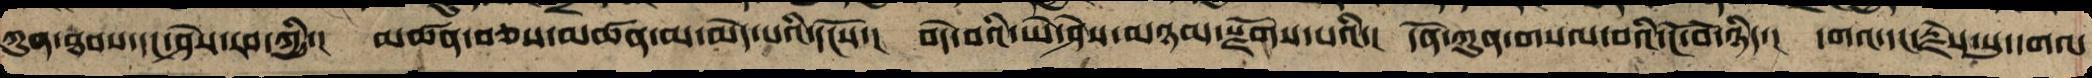ཀུན་ཐབས་དང་ཤེས་རབ་ཀྱི་། མཚན་བཅས་མཚན་མ་མེད་པའི་དངོས་། བདེ་བའི་ཡེ་ཤེས་མཉམསྫོགས་པའི་། དོན་ཀུན་གསལ་བའི་ངོ་བོ་ཉིད་། དགའ་དང་རྗེས་སུ་དགའ་
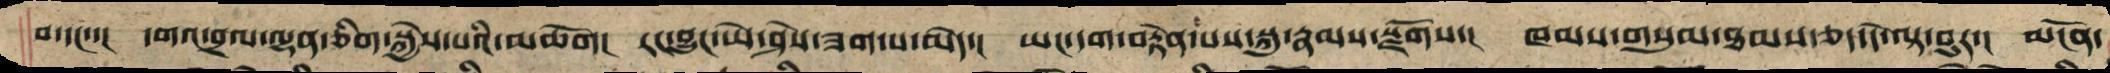བ་དང་་། དགའ་བྲལ་ལྷན་ཅིག་སྐྱེས་པའི་མཆོག། རང་བྱུང་ཡེ་ཤེས་ཟག་པ་མེད་། ཡང་དག་བརྟེན་པས་སྐུ་རྣམས་སྫོགས་། ཁམས་གསུམ་ཐམས་ཅད་དེ་ལྟ་བུར་། མངོན་
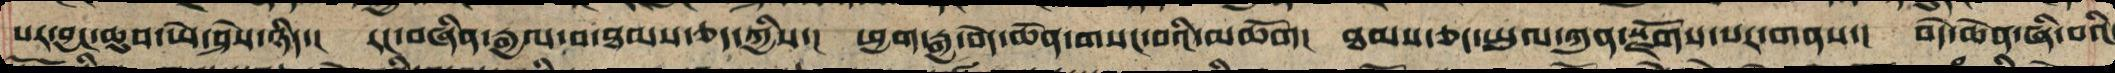པར་བྱང་ཆུབ་ཡེ་ཤེས་ཉིད་། རང་བཞིན་རྒྱལ་བ་ཐམས་ཅད་ཀྱིས་། ཕྱག་རྒྱ་བདེ་ཆེན་གསང་བའི་མཆོག། ཐམས་ཅད་ཡུལ་ཀུན་སྫོགས་པར་གནས་། བདེ་ཆེན་ཞི་བའི
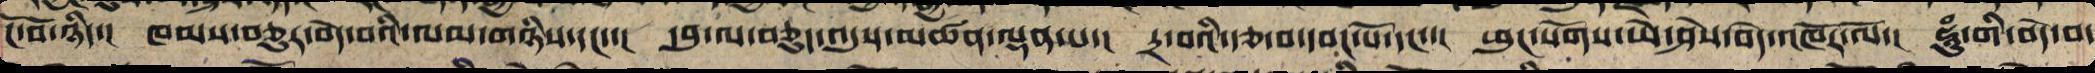ངོ་བོ་ཉིད་། ཁམས་བཅུར་བདེ་བའི་ལམ་གཉིས་དང་་། དབུ་ལ་བཅུད་འདུས་མཚན་ལྡན་པ་། དྲ་བའི་རྩ་དང་དབང་པོ་དང་་། ཕུང་སོགས་ཡེ་ཤེས་བདེ་འཁོར་ལོ་། ཧཱུྃ་གི་བདེ་བ་
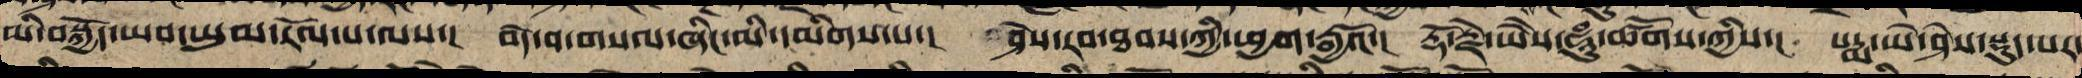མི་བསྐྱོད་ཡབ་ཡུམ་རོལ་པ་ལས་། བདེ་བ་གསལ་ཞིང་མི་དམིགས་པ་། ཤེས་རབ་ཐབས་ཀྱི་ཕྱག་རྒྱའོ་། རྡོ་རྗེ་ཡེ་ཤེས་ཧཱུྃ་ཚོགས་ཀྱིས་། པདྨ་ཡེ་ཤེས་སྡུད་པར་
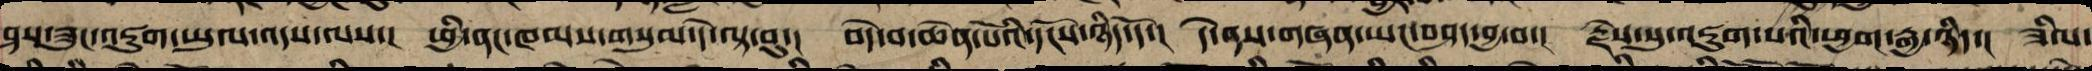ཤས་ཟུང་འཇུག་ཡུལ་ལས་འདས་། ཕྱི་ནང་ཁམས་གསུམ་དེ་ལྟ་བུ་། བདེ་བ་ཆེན་པོའི་དངོས་ཉིད་དོ་། དེ་ལས་གཞན་ཡང་བཤད་བྱ་བ་། རྗེས་སུ་འཇུག་པའི་ཕྱག་རྒྱ་ཉིད་། ཟིལ་
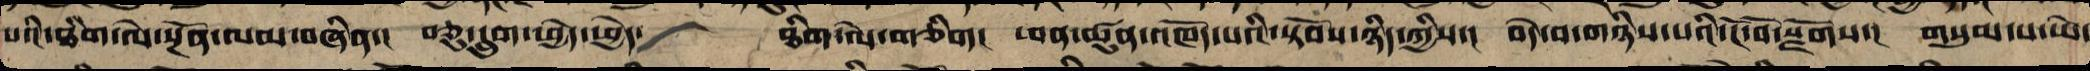པའི་ཐིག་ལེ་སྔོན་ལམ་བཞིན་། བཅུ་དྲུག་ཕྱེད་ཕྱེད་   ཐིག་ལེ་གཅིག། ཕན་ཚུན་འཁོད་པའི་སྟོབས་ཉིད་ཀྱིས་། བདེ་བ་གཉིས་པའི་ངོ་བོ་སྫོགས་། གསུམ་པ་ཡེ་
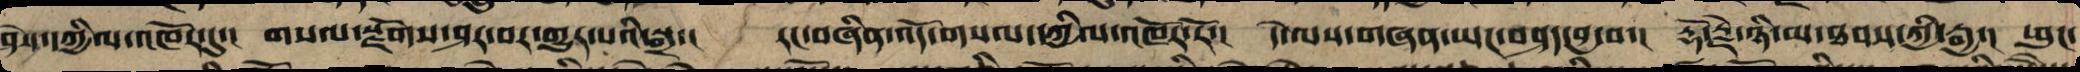ཤེས་དཀྱིལ་འཁོར་དུ་། གསལ་སྫོགས་ཤར་བར་གྱུར་པའི་སྒྲ་། རང་བཞིན་འོད་གསལ་དཀྱིལ་འཁོར་རོ་། དེ་ལས་གཞན་ཡང་བཤད་བྱ་བ་། རྡོ་རྗེ་ཉི་མ་ཐབས་ཀྱི་རྒྱ་། ཕུང་
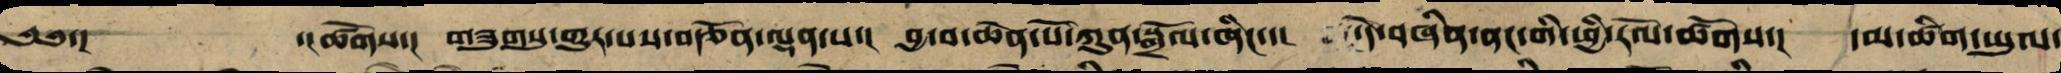༄༅་། ་།ཚོགས་། གཟུགསུ་གྱུར་པས་བརྩོན་ལྡན་པ་། བྱ་བ་ཆེན་པོ་ཀུན་སྒྲོལ་ཞིང་་། དེ་བཞིན་ནང་གི་ཕྱི་རོལ་ཚོགས་། དམ་ཚིག་ཡུལ་
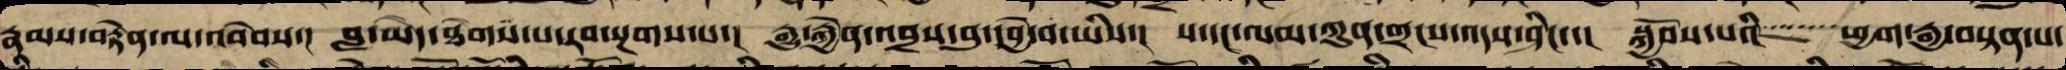རྣམས་བརྟེན་ལ་འབེབས་། བླ་མེད་ཐེག་པར་རབ་སྔགས་པ་། རྒྱུ་རྐྱེན་འབྲས་བུ་དབྱེ་བ་ཡི་། ས་དང་ལམ་ཀུན་གྲངས་འདས་ཤིང་་། སྐྱོབས་པའི་   ཕྱག་རྒྱ་བསྟན་པ་
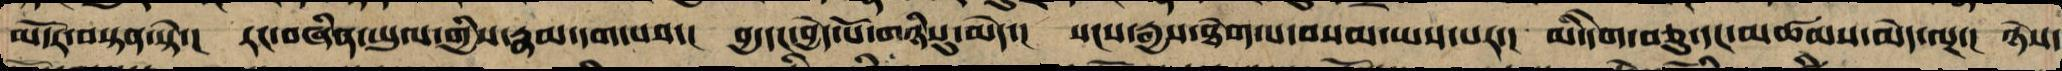མངོན་བསྟན་ཏེ་། རང་བཞིན་ཡུལ་གྱིས་རྣམ་དག་པས་། བྱ་དང་བྱེད་པོ་གཉིས་སུ་མེད་། སངས་རྒྱས་ཐེག་པ་བསམ་ཡས་པར་། མི་དགེ་བཅུ་དང་མཚམས་མེད་ལྔ་། ཉེས་
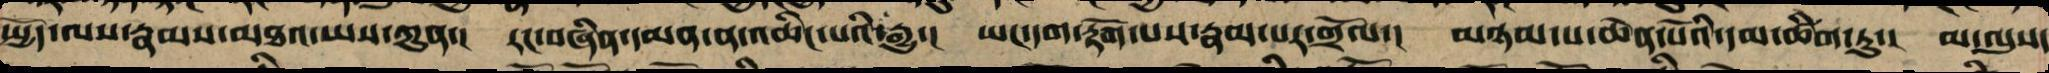སྤྱོད་ལས་རྣམས་མཐའ་ཡས་ཀུན་། རང་བཞིན་དམན་རྣམས་འཆིང་བའི་རྒྱུ་། ཡང་དག་རྟོག་པས་རྣམ་པར་གྲོལ་། མཉམ་པ་ཆེན་པོའི་དམ་ཚིག་ཏུ་། མ་ལུས་
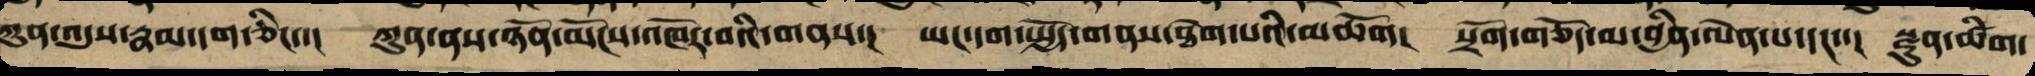ཀུན་འདུས་རྣམ་དག་ཅིང་་། ཀུན་ནས་ཉོན་མོངས་འཁོར་བའི་གནས་། ཡང་དག་སྤྱོད་གནས་ཐེག་པའི་མཆོག། སྲོག་གཅོད་མ་བྱིན་ལེན་པ་དང་་། སྫུན་ཚིག་
